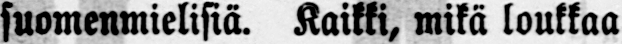suomenmielisiä. Kaikki, mikä loukkoa
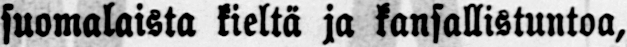suomalaista kieltä ja kansallistuntoa,
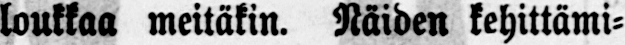toukkaa meitäkin. Näiden kehittämi-
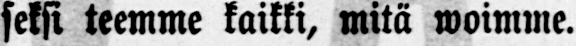seksi teemme kaikki, mitä woimme.
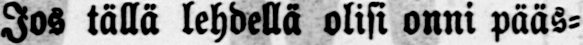Jos tällä lehdellä olisi onni pääs-
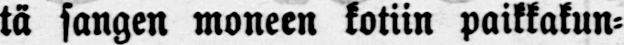tä sangen moneen kotiin paikkakun-
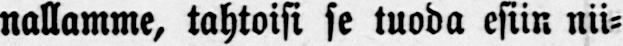nallamme, tahtoisi se tuoda esiin nii-
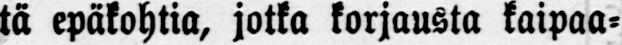tä epäkohtia, jotka korjausta kaipaa-
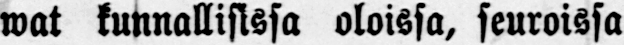wat kunnallisissa oloissa, seuroissa
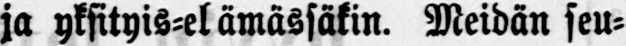ja yksityis-elämässäkin. Meidän seu-
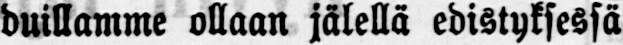duillamme ollaan jälellä edistyksessä
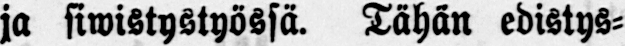ja siwistystyössä. Tähän edistys-
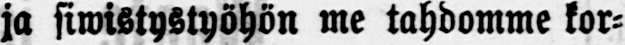tä siwistystyöhön me tahdomme kor-
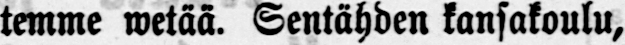temme wetää. Sentähden kansakoulu,
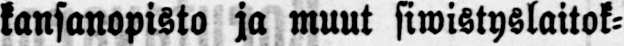kansanopisto ja muut siwistyslaitok-
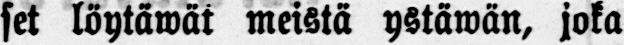set löytäwät meistä ystäwän, joka
